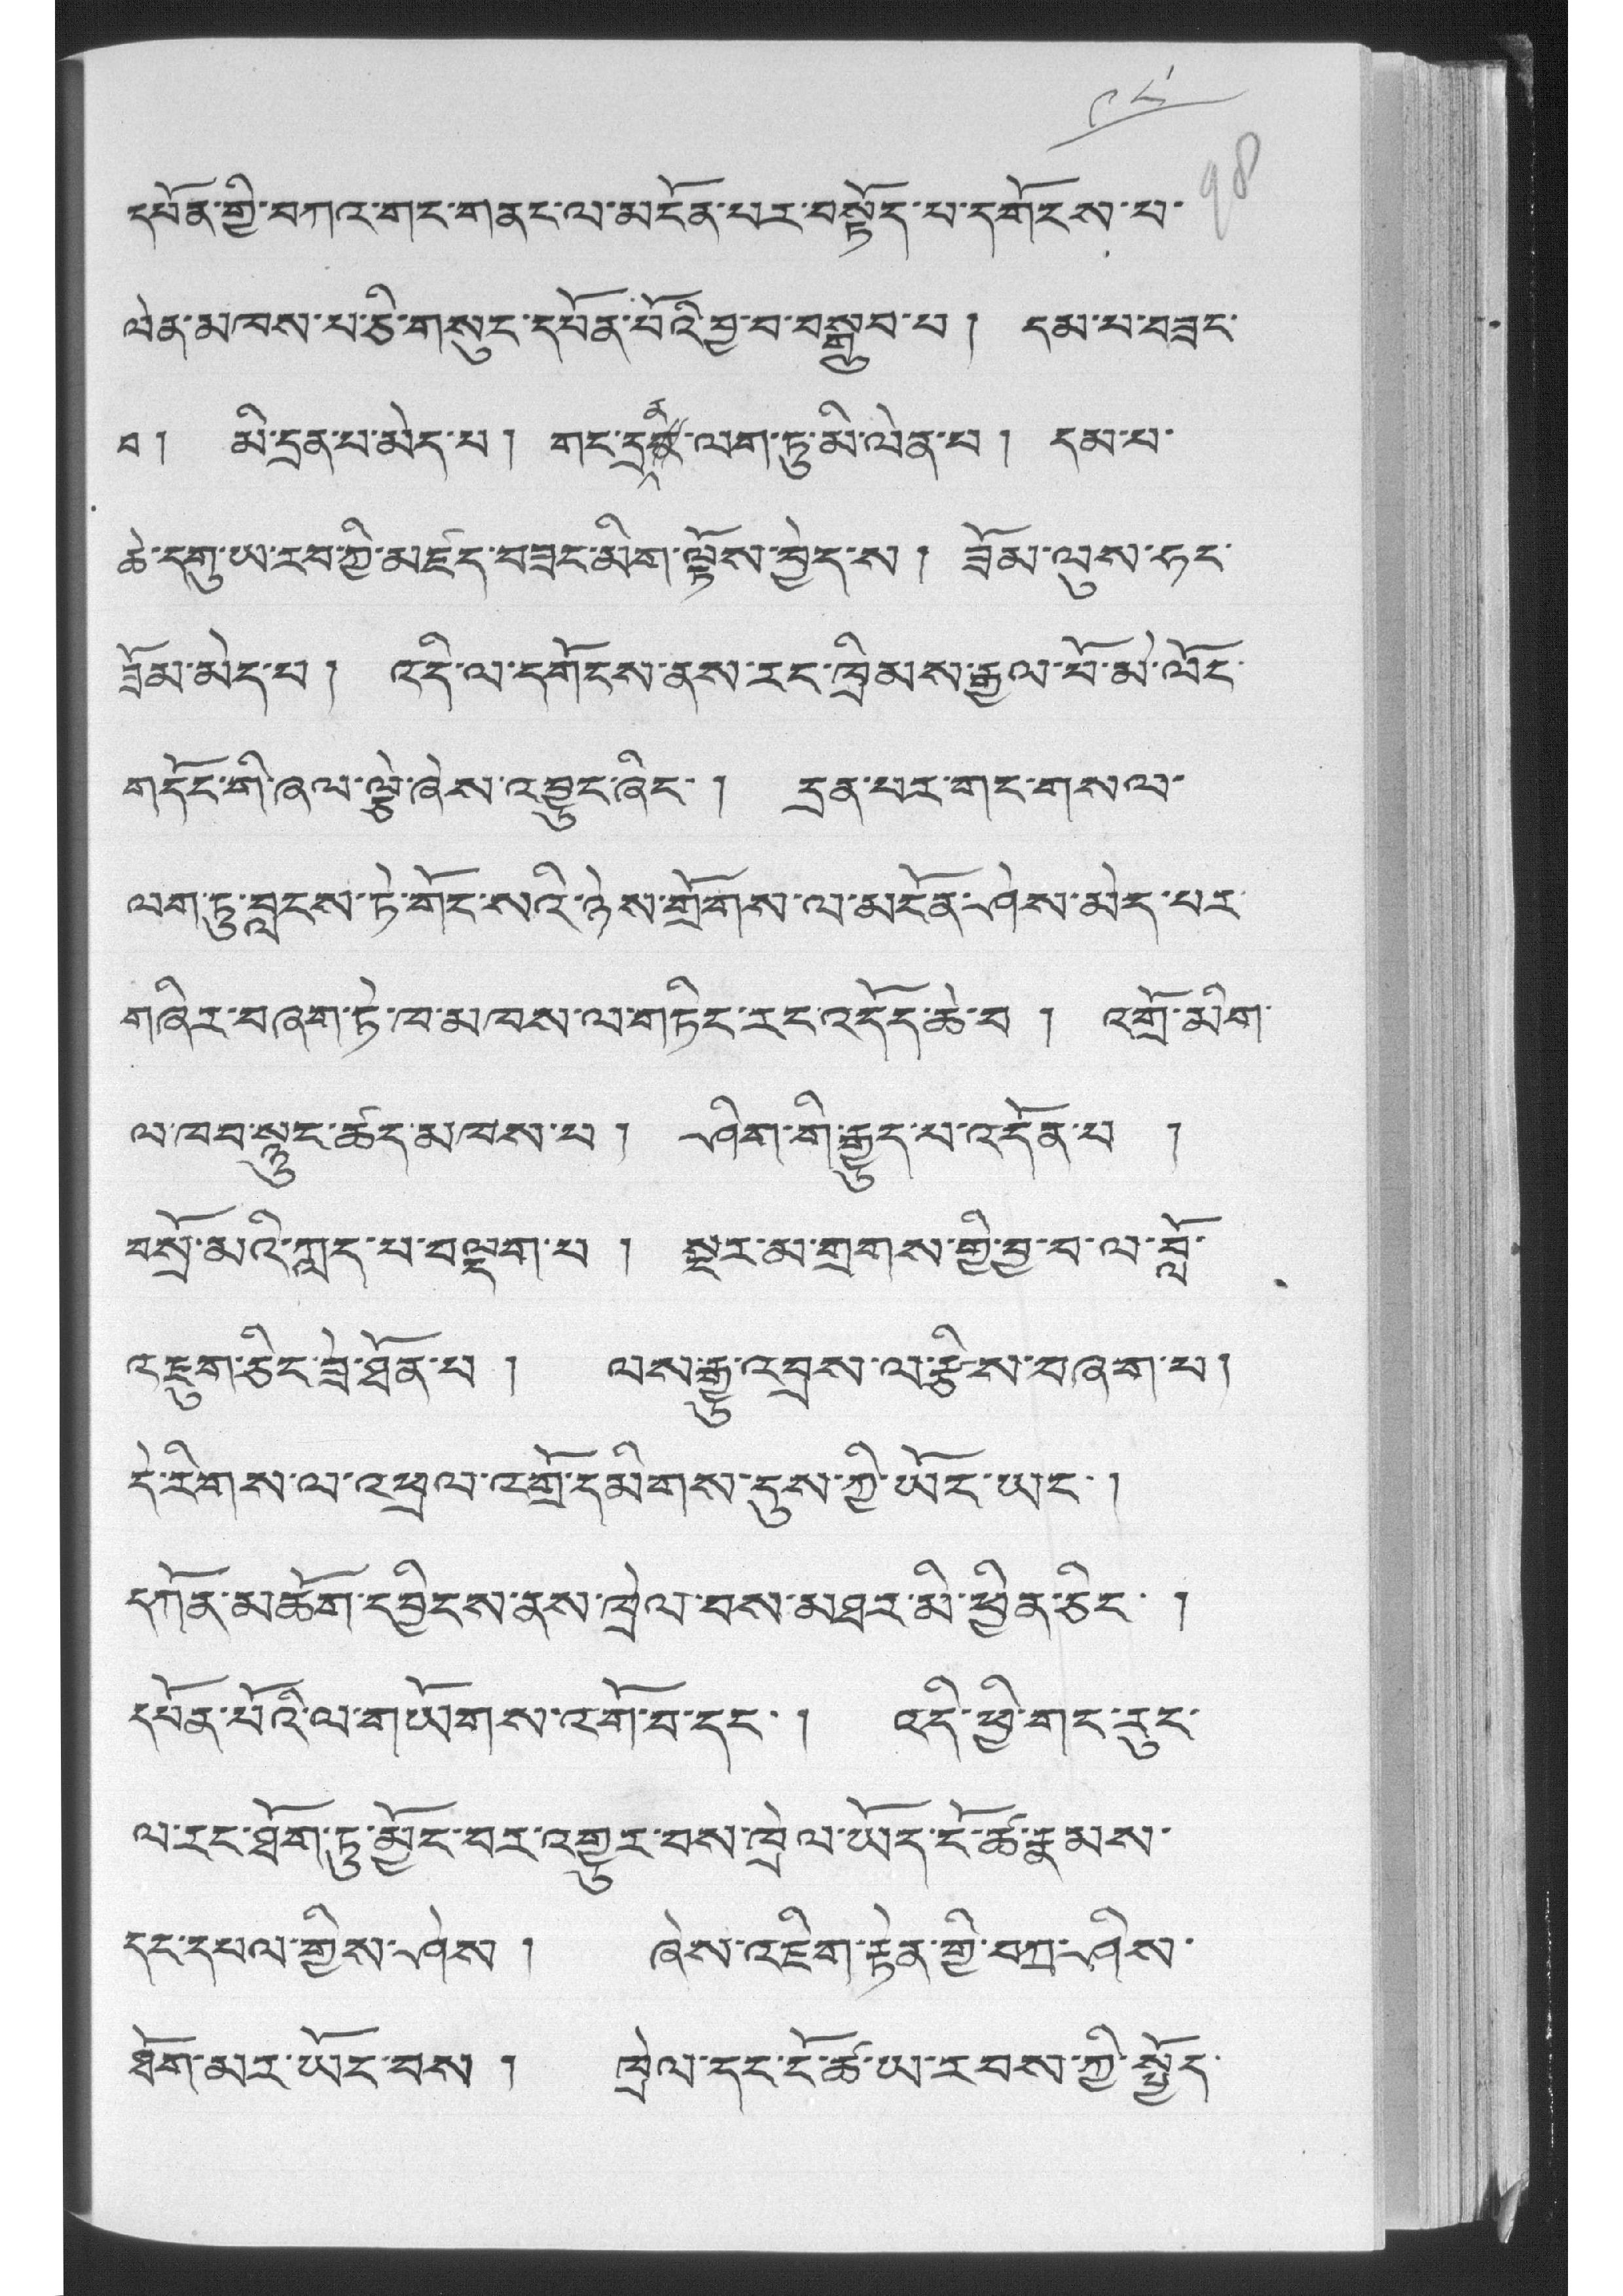༩༨
དཔོན་གྱི་བཀའ་གང་གནང་ལ་མངོན་པར་བསྟོད་པ་དགོངས་པ་
ལེན་མཁས་པ་ཅི་གསུང་དཔོན་པོའི་བྱ་བ་བསྒྲུབ་པ ། དམ་པ་བཟང་
བ ། མི་དྲན་པ་མེད་པ། གང་དྲནན་ལག་ཏུ་མི་ལེན་པ། དམ་པ་
ཆེ་དགུ་ཡ་རབ་ཀྱི་མཛད་བཟང་མིག་ལྟོས་བྱེད་ས། ཟོམ་ལུས་ཧང་
ཟོམ་མེད་པ། འདི་ལ་དགོངས་ནས་རང་ཁྲིམས་རྒྱལ་པོ་མེ་ལོང་
གདོང་གི་ཞལ་ལྕེ་ཞེས་འབྱུང་ཞིང་། དྲན་པར་གང་གསལ་
ལག་ཏུ་བླངས་ཏེ་གོང་སའི་ཉེས་གྲོགས་ལ་མངོན་ཤེས་མེད་པར་
གཞིར་བཞག་ཏེ་ཁ་མཁས་ལ་གཏིང་རང་འདོད་ཆེ་བ ། འགྲོ་མིག་
ལ་ཁབ་སྙུང་ཚད་མཁས་པ ། ཤིག་གི་རྒྱུད་པ་འདོན་པ །
བསྲོ་མའི་ཀླད་པ་བལྡག་པ ། སྔར་མ་གྲགས་གྱི་བྱ་བ་ལ་བློ་
འཇུག་ཅིང་ཟེ་ཐོན་པ ། ལས་རྒྱུ་འབྲས་ལ་རྩིས་བཞག་པ།
དེ་རིགས་ལ་འཕྲལ་འགྲོ་དམིགས་དུས་ཀྱི་ཡོང་ཡང་།
དཀོན་མཆོག་དབྱིངས་ནས་ཁྲེལ་བས་མཐར་མི་ཕྱིན་ཅང་ །
དཔོན་པོའི་ལ་གཡོགས་འགོ་བ་དང་ ། འདི་ཕྱི་གང་རུང་
ལ་རང་ཐོག་ཏུ་མྱོང་བར་འགྱུར་བས་ཁྲེལ་ཡོད་ངོ་ཚ་རྣམས་
དང་དཔལ་གྱིས་ཤེས ། ཞེས་འཇིག་རྟེན་གྱི་བཀྲ་ཤིས་
ཐོག་མར་ཡོང་བས ། ཁྲེལ་དར་ངོ་ཚ་ཡ་རབས་ཀྱི་སྦྱོར་
